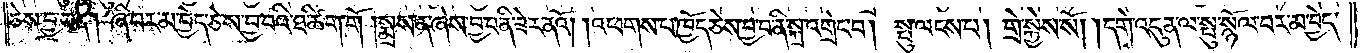ཅེས་བྱ་བ་ནི། ཞི་བར་མ་བྱེད་ཅེས་བྱ་བའི་ཐ་ཚིག་གོ །སྨྲས་ན་ཞེས་བྱ་བ་ནི་ཟེར་ནའོ། །འཕགས་པ་ཁྱོད་ཅེས་བྱ་བ་ནི་སྐྲ་འགྲེང་བ། སྤུ་ལངས་པ། གྲེ་སྐྱེས་སོ། །དགེ་འདུན་ལ་སྤུ་སྙོལ་བར་མ་བྱེད་
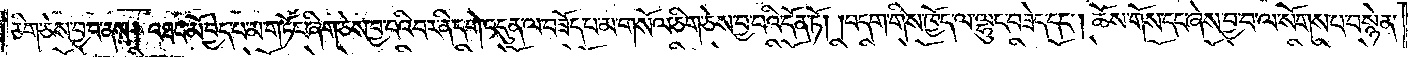ཅིག་ཅེས་བྱ་བ་ནས། འཐབ་མོ་བྱེད་པ་མ་གཏོང་ཞིག་ཅེས་བྱ་བའི་བར་ནི་དགེ་འདུན་ལ་བཟོད་པ་མ་གསོལ་ཅིག་ཅེས་བྱ་བའི་དོན་ཏོ། །བདག་གིས་ཁྱོད་ལ་ལྷུང་བཟེད་དང༌། ཆོས་གོས་དང་ཞེས་བྱ་བ་ལ་སོགས་པ་བསྙེན་
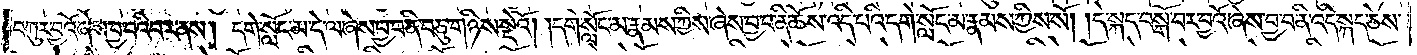བཀུར་བྱའོ་ཞེས་བྱ་བའི་བར་ནས། དགེ་སློང་མ་དེ་ལ་ཞེས་བྱ་བ་ནི་བཅུ་གཉིས་སྡེའོ། །དགེ་སློང་མ་རྣམས་ཀྱིས་ཞེས་བྱ་བ་ནི་ཆོས་འདི་པའི་དགེ་སློང་མ་རྣམས་ཀྱིས་སོ། །དེ་སྐད་བསྒོ་བར་བྱའོ་ཞེས་བྱ་བ་ནི་འདི་སྐད་ཅེས་
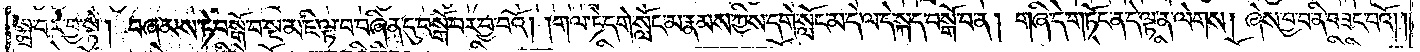སྨྲ་བར་བྱ་སྟེ། བཞམས་ཏེ་བསྒོ་བ་སྔ་མ་ཇི་ལྟ་བ་བཞིན་དུ་བསྒོ་བར་བྱ་བའོ། །གལ་ཏེ་དགེ་སློང་མ་རྣམས་ཀྱིས་དགེ་སློང་མ་དེ་ལ་དེ་སྐད་བསྒོ་བ་ན། གཞི་དེ་གཏོང་ན་དེ་ལྟ་ན་ལེགས། ཞེས་བྱ་བ་ནི་བཟང་བའོ༎
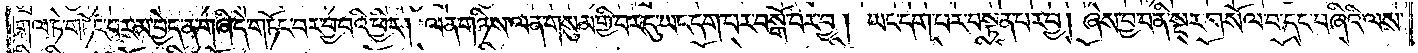གལ་ཏེ་གཏོང་བར་མ་བྱེད་ན་གཞི་དེ་གཏོང་བར་བྱ་བའི་ཕྱིར། ལན་གཉིས་ལན་གསུམ་གྱི་བར་དུ་ཡང་དག་པར་བསྒོ་བར་བྱ། ཡང་དག་པར་བསྟན་པར་བྱ། ཞེས་བྱ་བ་ནི་སྔར་གསོལ་བ་དང་བཞིའི་ལས་
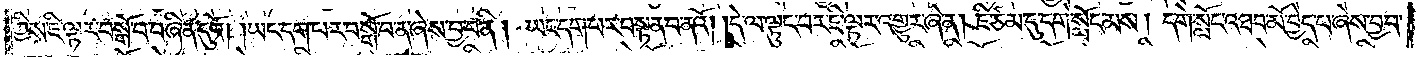ཀྱིས་ཇི་ལྟར་བསྒོ་བ་བཞིན་དུའོ། །ཡང་དག་པར་བསྒོ་བ་ན་ཞེས་བྱ་བ་ནི། ཡང་དག་པར་བསྟན་པ་ནའོ། །དེ་ལ་ལྟུང་བར་ཇི་ལྟར་འགྱུར་ཞེ་ན། ཇི་ཙམ་དུ་དགེ་སློང་མས། དགེ་སློང་འཐབ་མོ་བྱེད་པ་ཞེས་བྱ་བ་
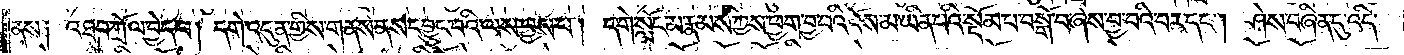ནས༑  འཐབ་ཀྲོལ་བྱེད་པ། དགེ་འདུན་གྱིས་གནས་ནས་དབྱུང་བའི་ལས་བྱས་པ།  དགེ་སློང་མ་རྣམས་ཀྱིས་ཕྱག་བྱ་བའི་འོས་མ་ཡིན་པའི་སྡོམ་པ་བསྒོ་བ་ཞེས་བྱ་བའི་བར་དང༌། ཤེས་བཞིན་དུ་འདི་
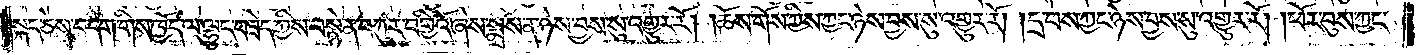སྐད་ཅེས་བདག་གིས་ཁྱོད་ལ་ལྷུང་བཟེད་ཀྱིས་བསྙེན་བཀུར་བགྱིའོ་ཞེས་སྨྲས་ན་ཉེས་བྱས་སུ་འགྱུར་རོ། །ཆོས་གོས་ཀྱིས་ཀྱང་ཉེས་བྱས་སུ་འགྱུར་རོ། །དྲ་བས་ཀྱང་ཉེས་བྱས་སུ་འགྱུར་རོ། །ཕོར་བུས་ཀྱང་
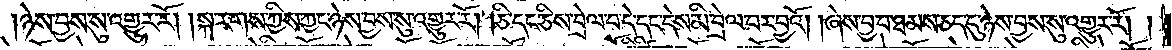ཉེས་བྱས་སུ་འགྱུར་རོ། །སྐ་རགས་ཀྱིས་ཀྱང་ཉེས་བྱས་སུ་འགྱུར་རོ། །ཅི་དང་ཅིས་བྲེལ་བ་དེ་དང་དེས་མི་བྲེལ་བར་བྱའོ། །ཞེས་བྱ་བ་ཐམས་ཅད་དུ་ཉེས་བྱས་སུ་འགྱུར་རོ། །
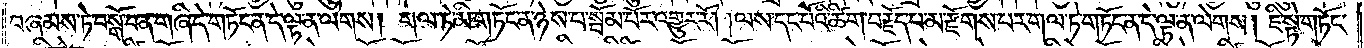བཞམས་ཏེ་བསྒོ་བ་ན་གཞི་དེ་གཏོང་ན་དེ་ལྟ་ན་ལེགས། གལ་ཏེ་མི་གཏོང་ན་ཉེས་པ་སྦོམ་པོར་འགྱུར་རོ། །ལས་དང་པོའི་ཚིག་བརྗོད་པ་མ་རྫོགས་པར་གལ་ཏེ་གཏོང་ན་དེ་ལྟ་ན་ལེགས། ཇི་སྟེ་གཏོང་
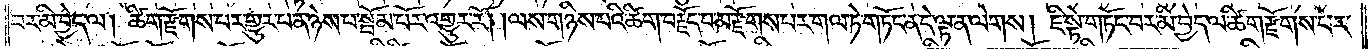བར་མི་བྱེད་ལ། ཚིག་རྫོགས་པར་གྱུར་པ་ན་ཉེས་པ་སྦོམ་པོར་འགྱུར་རོ། །ལས་གཉིས་པའི་ཚིག་བརྗོད་པ་མ་རྫོགས་པར་གལ་ཏེ་གཏོང་ན་དེ་ལྟ་ན་ལེགས། ཇི་སྟེ་གཏོང་བར་མི་བྱེད་ལ་ཚིག་རྫོགས་པར་
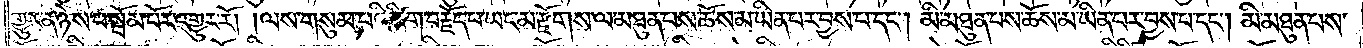གྱུར་ན་ཉེས་པ་སྦོམ་པོར་འགྱུར་རོ། །ལས་གསུམ་པའི་ཚིག་བརྗོད་པ་ཡང་མ་རྫོགས་ལ་མཐུན་པས་ཆོས་མ་ཡིན་པར་བྱས་པ་དང༌། མི་མཐུན་པས་ཆོས་མ་ཡིན་པར་བྱས་པ་དང༌། མི་མཐུན་པས་
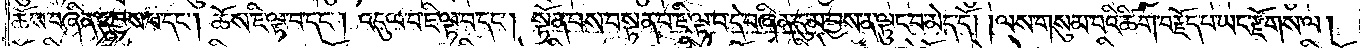ཆོས་བཞིན་དུ་བྱས་པ་དང༌། ཆོས་ཇི་ལྟ་བ་དང༌། འདུལ་བ་ཇི་ལྟ་བ་དང༌། སྟོན་བས་བསྟན་པ་ཇི་ལྟ་བ་དེ་བཞིན་དུ་མ་བྱས་ན་ལྟུང་བ་མེད་དོ། །ལས་གསུམ་པའི་ཚིག་བརྗོད་པ་ཡང་རྫོགས་ལ།
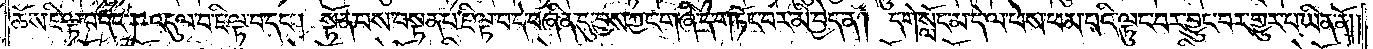ཆོས་ཇི་ལྟ་བ་དང༌། འདུལ་བ་ཇི་ལྟ་བ་དང༌། སྟོན་པས་བསྟན་པ་ཇི་ལྟ་བ་དེ་བཞིན་དུ་བྱས་ཀྱང་གཞི་དེ་གཏོང་བར་མི་བྱེད་ན། དགེ་སློང་མ་དེ་ལ་ཕས་ཕམ་པའི་ལྟུང་བར་བྱུང་བར་གྱུར་པ་ཡིན་ནོ། །
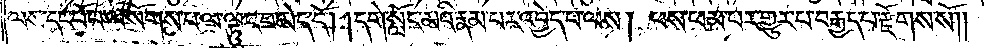ལས་དང་པོ་བ་ལ་སོགས་པ་ལ་ལྟུང་བ་མེད་དོ། །དགེ་སློང་མའི་རྣམ་པར་འབྱེད་པ་ལས། ཕས་ཕམ་པར་གྱུར་པ་བརྒྱད་པ་རྫོགས་སོ༎
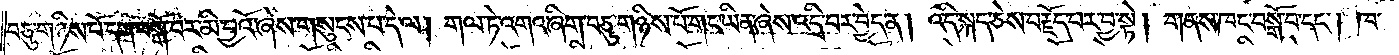བཅུ་གཉིས་པོ་དག་བསྒོ་བར་མི་བྱའོ་ཞེས་གསུངས་པ་དེ་ལ། གལ་ཏེ་འགའ་ཞིག་བཅུ་གཉིས་པོ་གང་ཡིན་ཞེས་འདྲི་བར་བྱེད་ན། འདི་སྐད་ཅེས་བརྗོད་པར་བྱ་སྟེ། གནས་ཁང་བསྒོ་བ་དང༌། ཁ་
